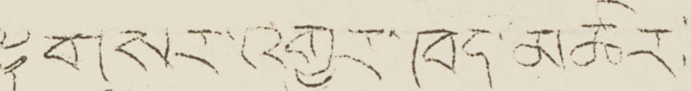༈གསར་འགྱུར་ཁད་མཚར:—
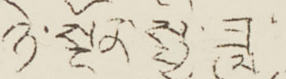ཉེ་སྔོན་སྤྱི་ཟླ་
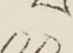༡༠
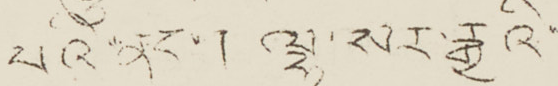པའི་ནང་། ལྷ་སར་རྒྱའི་
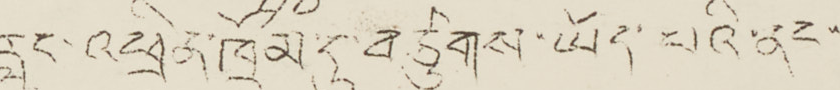རླུང་འཕྲིན་ཁྲོམ་དུ་བཙུགས་ཡོད་པའི་ནང་
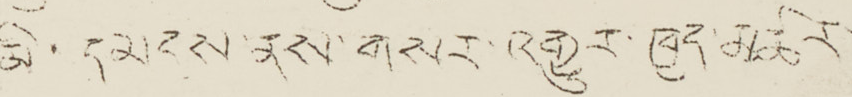མི་དམངས་ནས་གསར་འགྱུར་ཁྱུད་མཆིར་
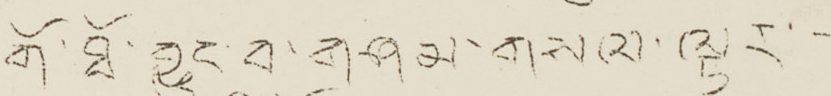གོ་ཐོ་བྱུང་བ་གཤམ་གསལ་ལྟར་
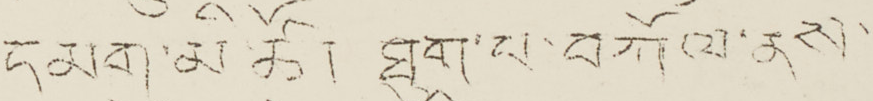"དམག་མི་ཚོ། ཐུག་པ་བཀོལ་ནས་
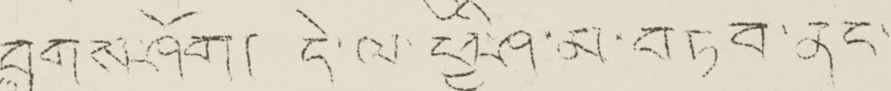བླུགས་ཤོག།། དེ་ལ་ཕྱི་ཤ་མ་བཏབ་ནང་
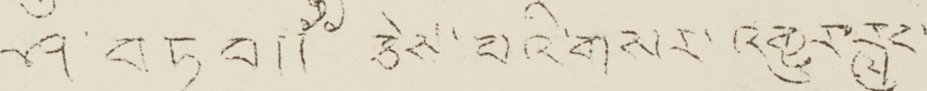ཤ་བཏབ།།" ཅེས་པའི་གསར་འགྱུར་རླུང་
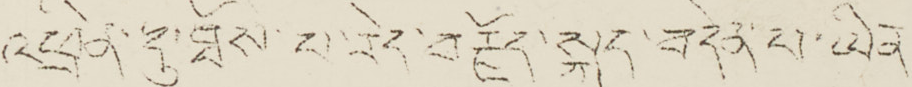འཕྲིན་དུ་ཐོས་པ་རེད་བརྗོད་སྐད་བདེན་པ་ཡིན་
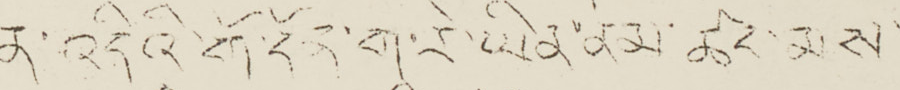ན་འདིའི་གོ་དོན་ག་རེ་ཡིན་ནམ་ཚང་མས་
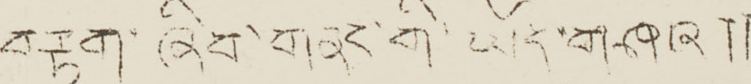བརྟག་ཞིབ་གནང་གི་ཡོད་གཤའ།།
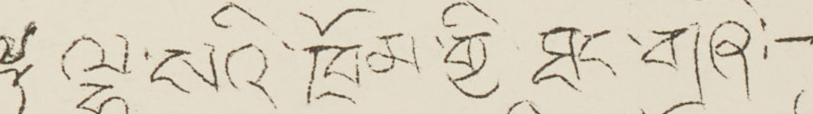༈ ལྷ་སའི་ཁྲོམ་གྱི ཐང་གཞི:—
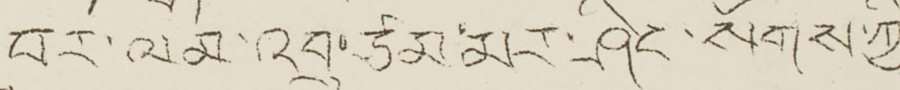བར་ལམ་འབྲུ་ཙམ་མར་ཤིང་སོགས་ཀྱི
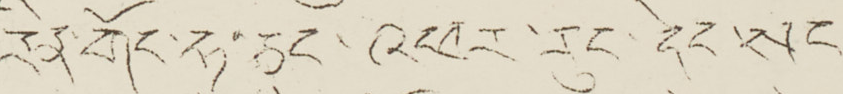རིན་གོང་ཧ་ཅང་འཕར་རུང་དེང་སང་
